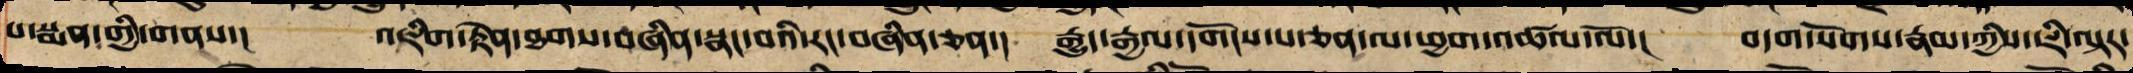པ་སྨན་གྱི་གནས་། འཇིག་རྟེན་ཐགས་བཞིན་སྣང་བའི་རང་བཞིན་ཅན་། རྒྱུད་རྒྱལ་དགོངས་པ་ཅན་ལ་ཕྱག་འཚལ་བསྟོད་། བདག་སོགས་རྣམས་ཀྱིས་ཇི་ལྟར་
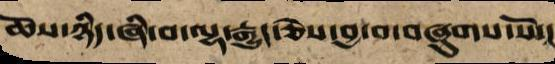ཆོས་ཉིད་ཞི་བ་ལྷ་རྒྱུད་ཅེས་བྱ་བ་བཞུགས་སོ་།
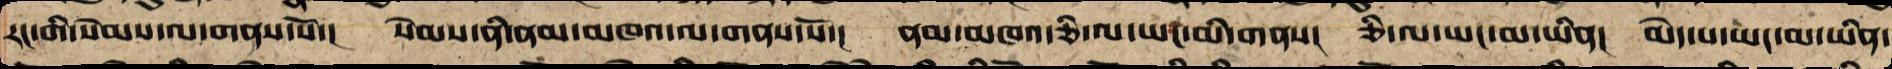རང་གི་སེམས་ལ་གནས་སོ་། སེམས་ནི་ནམ་མཁའ་ལ་གནས་སོ་། ནམ་མཁའ་ཅི་ལ་ཡང་མི་གནས། ཅི་ལ་ཡང་མ་ཡིན། མེད་པ་ཡང་མ་ཡིན་
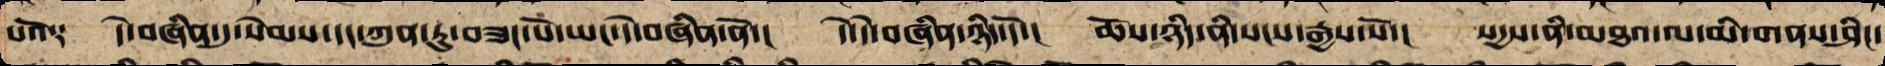པའོ༑ དེ་བཞིན་དུ་སེམས་དང་ཀུན་ཏུ་བཟང་པོ་ཡང་དེ་བཞིན་ནོ་། དེ་དེ་བཞིན་ཉིད་དོ་། ཆོས་ཉིད་ནི་སངས་རྒྱས་སོ་། སདྱས་ནི་མཐའ་ལ་མི་གནས་ཤིང་
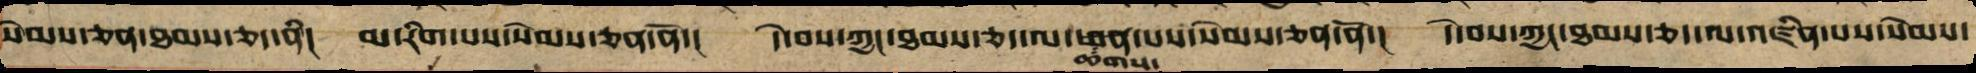སེམས་ཅན་ཐམས་ཅད་ནི། མ་རིག་པས་སེམས་ཅན་ནོ་། དེ་བས་ཀྱང་ཐམས་ཅད་ལ་ཆགས་པས་སེམས་ཅན་ནོ་། དེ་བས་ཀྱང་ཐམས་ཅད་ལ་འཛིན་པས་སེམས་
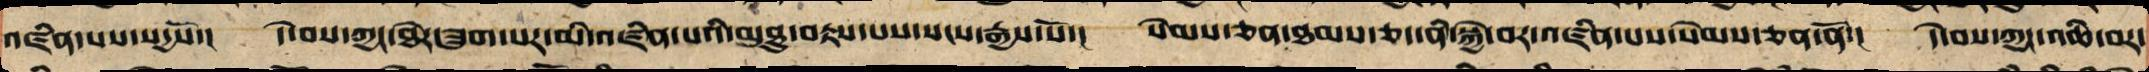འཛིན་པས་སདྱསོ་། དེ་བས་ཀྱང་ཐེར་ཟུག་པར་མི་འཛིན་པའི་མཐུ་བརྟས་པས་སངས་རྒྱས་སོ་། སེམས་ཅན་ཐམས་ཅད་ནི་སྐྱེ་བར་འཛིན་པས་སེམས་ཅན་ནོ་། དེ་བས་ཀྱང་འཆི་བར་
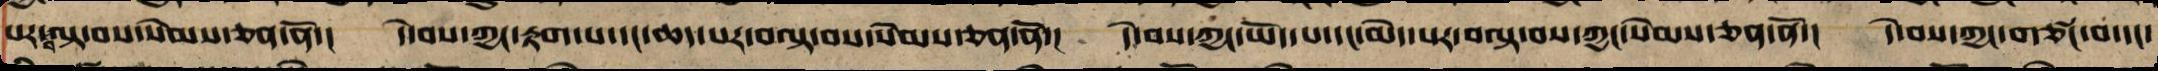པར་བལྟ་བས་སེམས་ཅན་ནོ་། དེ་བས་ཀྱང་རྟག་པ་དང་ཆད་པར་བལྟ་བས་སེམས་ཅན་ནོ་། དེ་བས་ཀྱང་ཡོད་པ་དང་མེད་པར་བལྟ་བས་ཀྱང་སེམས་ཅན་ནོ་། དེ་བས་ཀྱང་གཙང་བ་དང་
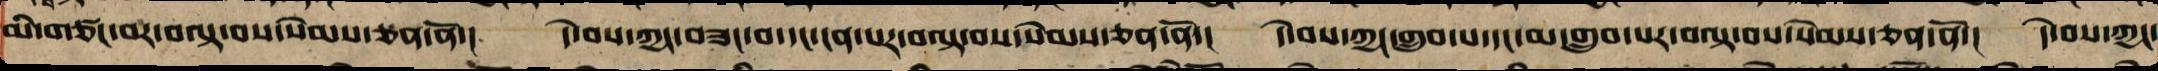མི་གཙང་བར་བལྟ་བས་སེམས་ཅན་ནོ་། དེ་བས་ཀྱང་བཟང་བ་དང་ངན་པར་བལྟ་བས་སེམས་ཅན་ནོ་། དེ་བས་ཀྱང་གྲུབ་པ་དང་མ་གྲུབ་པར་བལྟ་བས་སེམས་ཅན་ནོ་། དེ་བས་ཀྱང་
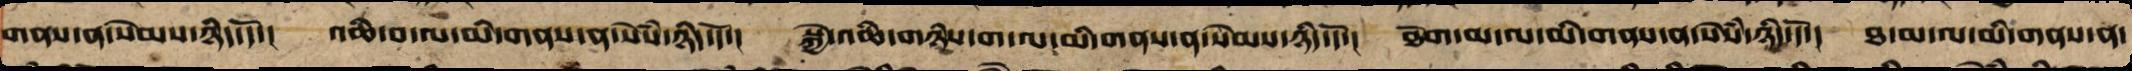གནས་ན་སེམས་ཉིད་དོ་། འཆི་བ་ལ་མི་གནས་ན་སེམས་ཉིད་དོ་། སྐྱེ་འཆི་གཉིས་ཀ་ལ་མི་གནས་ན་སེམས་ཉིད་དོ་། ཐོག་མ་ལ་མི་གནས་ན་སེམས་ཉིད་དོ་། ཐ་མ་ལ་མི་གནས་ན་
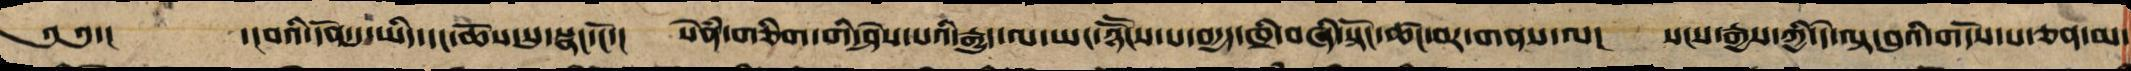༄༅་། ་།བའི་དོན་དུ་ཡིད་དང་ཆོས་སུ་སྣང་ངོ་། སེཾན་གཅིག་གི་ཤེས་པའི་རྒྱུད་ལ་ཡང་ཉོཽངས་པ་བརྒྱད་ཁྲི་བཞི་སྟོང་ཚང་བར་གནས་ལ། སངས་རྒྱས་ཀྱིས་དེ་ལྟ་བུའི་གདོས་པ་ཅན་མ་
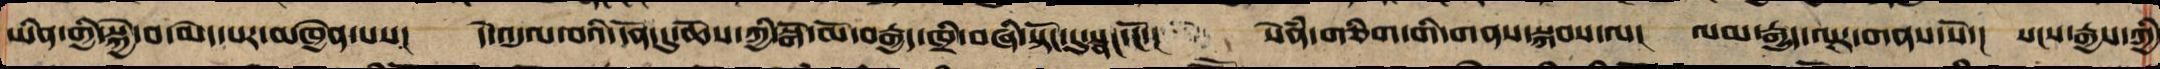ཡིན་གྱི་སྐྱེ་བ་མེད་པར་མཁྱེན་པས། དེ་འདུལ་བའི་དོན་དུ་ཆོས་ཀྱི་སྒོ་མོ་བརྒྱད་ཁྲི་བཞི་སྟོང་དུ་སྣང་ངོ་། སེྃན་གཅིག་གི་གནས་སྐབས་ལ། ལམ་རྒྱུད་ལྔར་གནས་སོ་། སངས་རྒྱས་ཀྱི
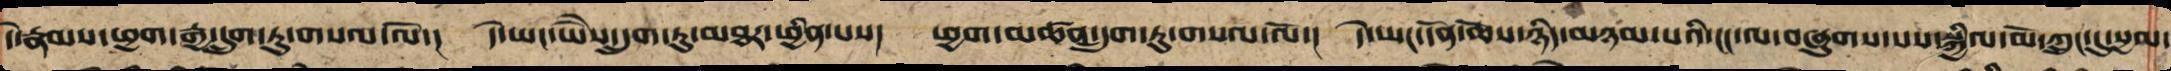དེ་རྣམས་ཕྱག་རྒྱ་དྲུག་ཏུ་གསལ་ལོ་། དེ་ཡང་ཡེཻས་དྲུག་ཏུ་མཐར་ཕྱིན་པས། ཕྱག་མཚན་དྲུག་ཏུ་གསལ་ལོ་། དེ་ཡང་དོན་ཆོས་ཉིད་མཉམ་པའི་ངང་ལ་བཞུགས་པས་སྐྱིལ་མོ་ཀྲུང་དུ་སྱལ་
